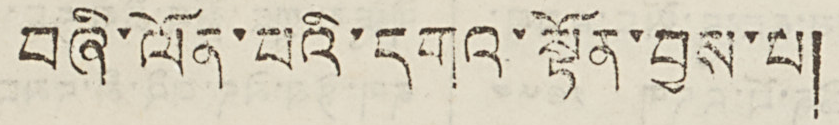བཞི་ལོན་པའི་དགའ་སྟོན་བྱས་པ།
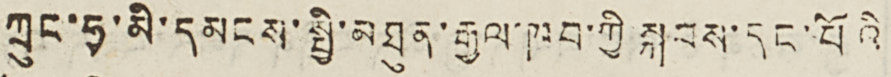ཀྲུང་ཧྭ་མི་དམངས་སྤྱི་མཐུན་རྒྱལ་ཁབ་ཀྱི སྐབས་དང་པོའི
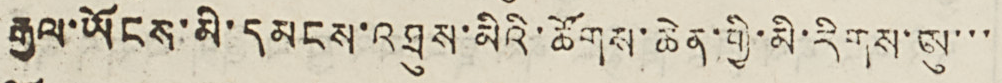རྒྱལ་ཡོངས་མི་དམངས་འཐུས་མིའི་ཚོགས་ཆེན་གྱི་མི་རིགས་ཨུ་་་
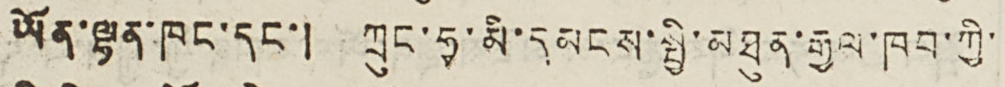ཡོན་ལྷན་ཁང་དང་། ཀྲུང་ཧྭ་མི་དམངས་སྤྱི་མཐུན་རྒྱལ་ཁབ་ཀྱི་
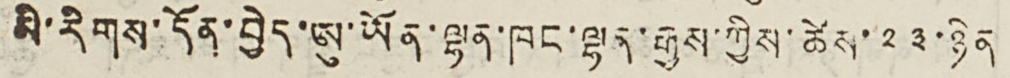མི་རིགས་དོན་བྱེད་ཨུ་ཡོན་ལྷན་ཁང་ལྷན་རྒྱས་ཀྱིས་ཚེས་༢༣་ཉིན
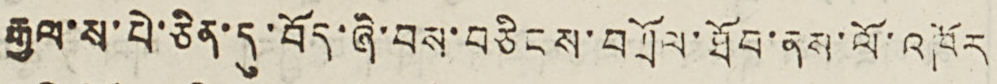རྒྱལ་ས་པེ་ཅིན་དུ་བོད་ཞི་བས་བཅིངས་བཀྲོལ་ཐོབ་ནས་ལོ་འཁོར
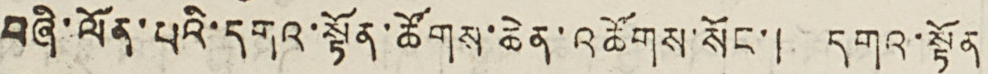བཞི་ལོན་པའི་དགའ་སྟོན་ཚོགས་ཆེན་འཚོགས་སོང་། དགའ་སྟོན
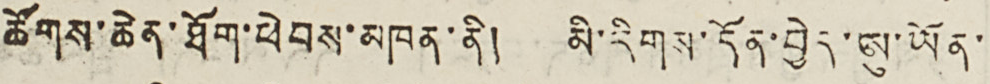ཚོགས་ཆེན་ཐོག་ཕེབས་མཁན་ནི། མི་རིགས་དོན་བྱེད་ཨུ་ཡོན་
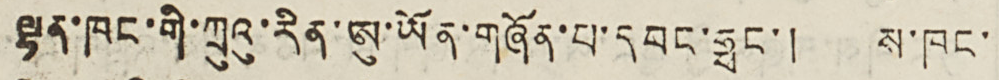ལྷན་ཁང་གི་ཀྲུའུ་རིན་ཨུ་ཡོན་གཞོན་པ་དབང་ཧྥང་། ས་ཁང་
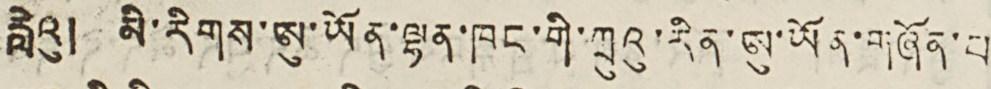རླེའུ། མི་རིགས་ཨུ་ཡོན་ལྷན་ཁང་གི་ཀྲུའུ་རིན་ཨུ་ཡོན་གཞོན་པ
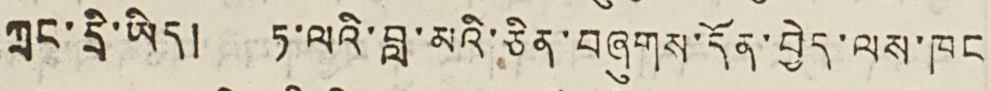ཀྲང་དྲི་ཡིད། ཏ་ལའི་བླ་མའི་ཅིན་བཞུགས་དོན་བྱེད་ལས་ཁང
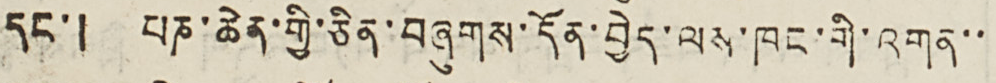དང་། པཎ་ཆེན་གྱི་ཅིན་བཞུགས་དོན་བྱེད་ལས་ཁང་གི་འགན་་
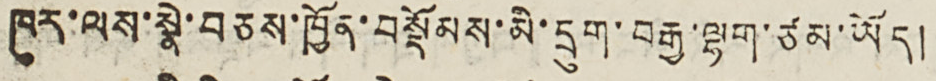ཁུར་ལས་སྣེ་བཅས་ཁྱོན་བསྡོམས་མི་དྲུག་བརྒྱ་ལྷག་ཙམ་ཡོད།
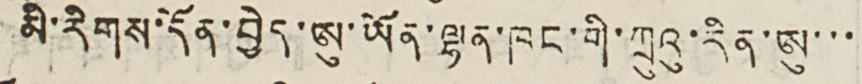མི་རིགས་དོན་བྱེད་ཨུ་ཡོན་ལྷན་ཁང་གི་ཀྲུའུ་རིན་ཨུ་་་
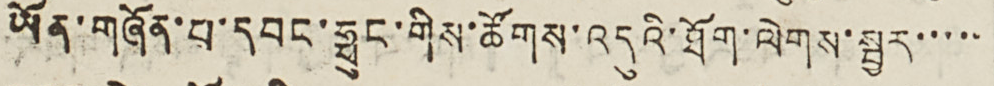ཡོན་གཞོན་པ་དབང་ཧྥུང་གིས་ཚོགས་འདུའི་ཐོག་ལེགས་སྦྱར་་་་་
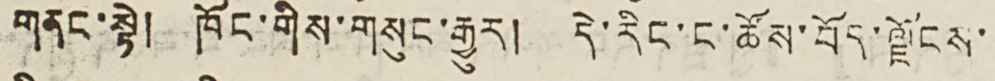གནང་སྟེ། ཁོང་གིས་གསུང་རྒྱུར། དེ་རིང་ང་ཚོས་བོད་ལྗོངས་
